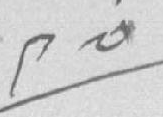༩༧
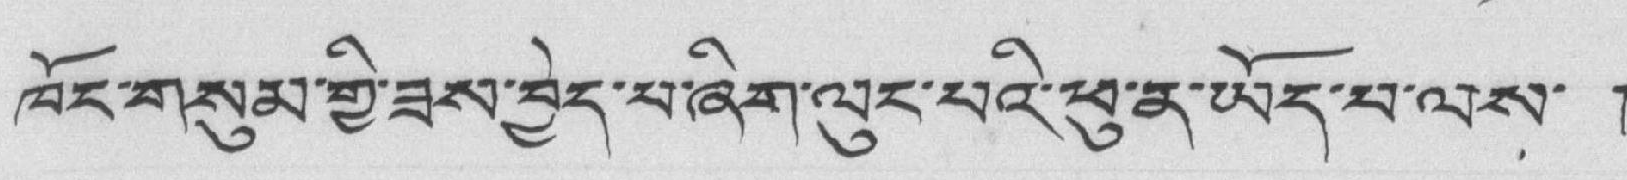ཁོང་གསུམ་གྱི་ཟས་བྱེད་པ་ཞིག་ལུང་པའི་ཕུ་ན་ཡོད་པ་ལས་ །
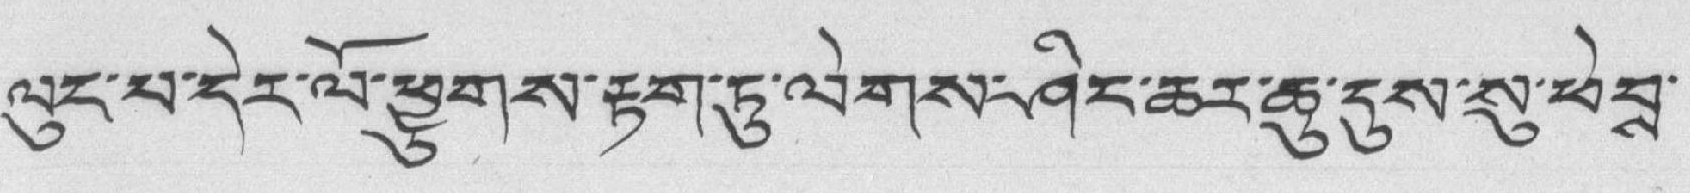ལུང་པ་དེར་ལོ་ཕྱུགས་རྟག་ཏུ་ལེགས་ཤིང་ཆར་ཆུ་དུས་སུ་ཕེབྶ་
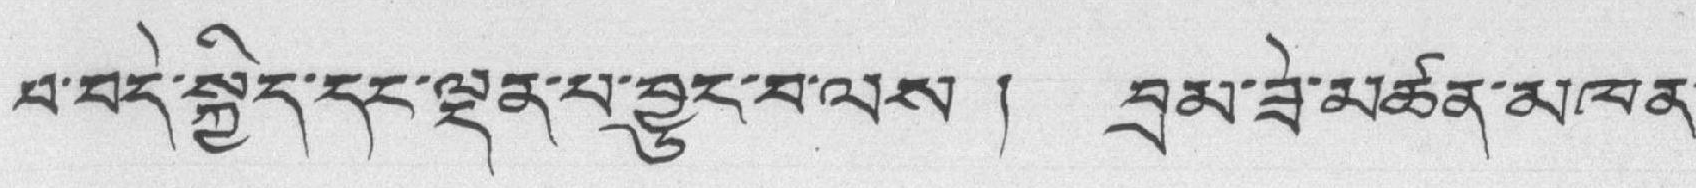པ་བདེ་སྐྱིད་དང་ལྡན་པ་བྱུང་བ་ལས ། བྲམ་ཟེ་མཚན་མཁན་
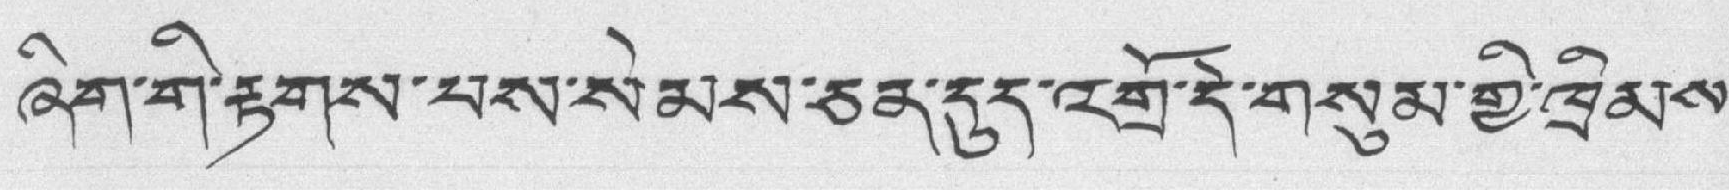ཞིག་གི་རྟགས་པས་སེམས་ཅན་དུད་འགྲོ་དེ་གསུམ་གྱི་ཁྲིམས་
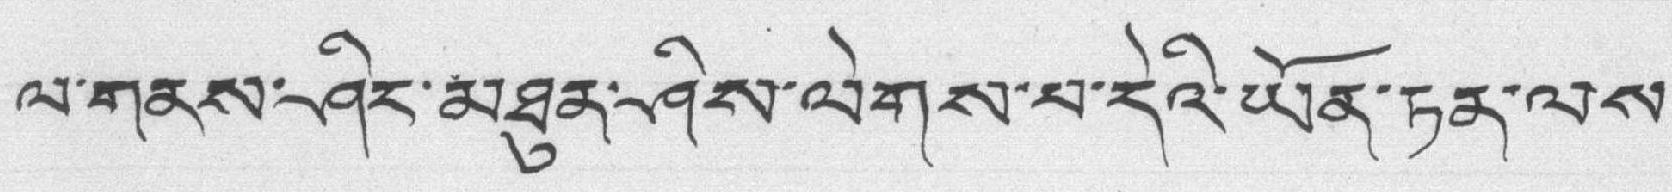ལ་གནས་ཤིང་མཐུན་ཤིས་ལེགས་པ་དེའི་ཡོན་ཏན་ལས་
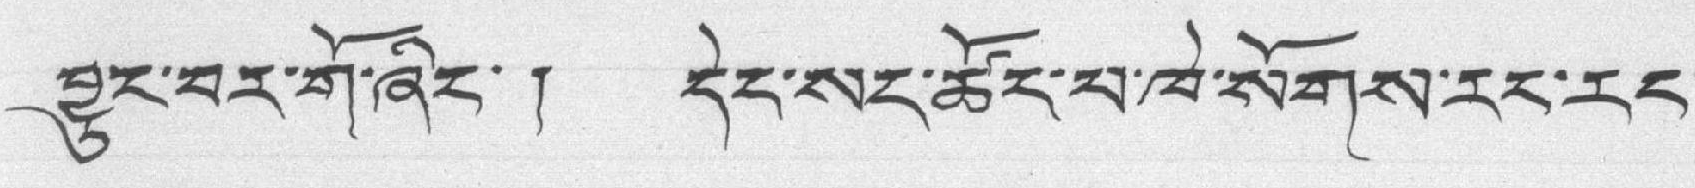བྱུང་བར་གོ་ཞིང་ ། དེང་སང་ཚོང་པ་ཁེ་སོགས་རང་རང་
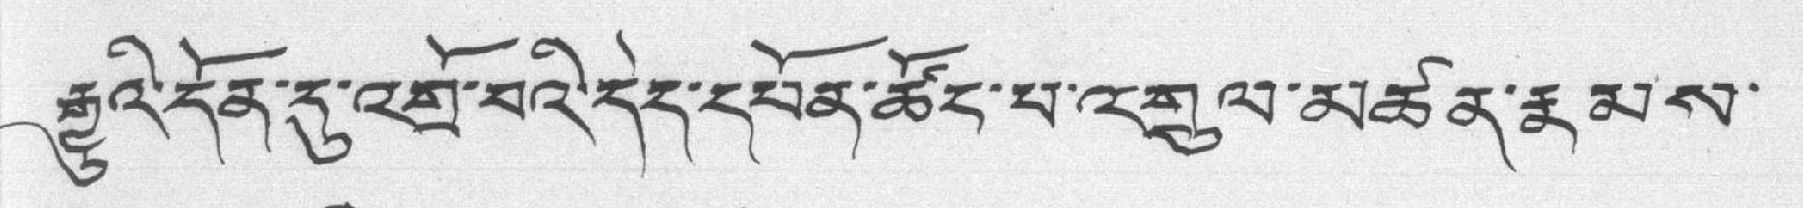རྒྱུའི་དོན་དུ་འགྲོ་བའི་དེད་དཔོན་ཚོང་པ་འགྲུལ་མཚན་རྣམས་
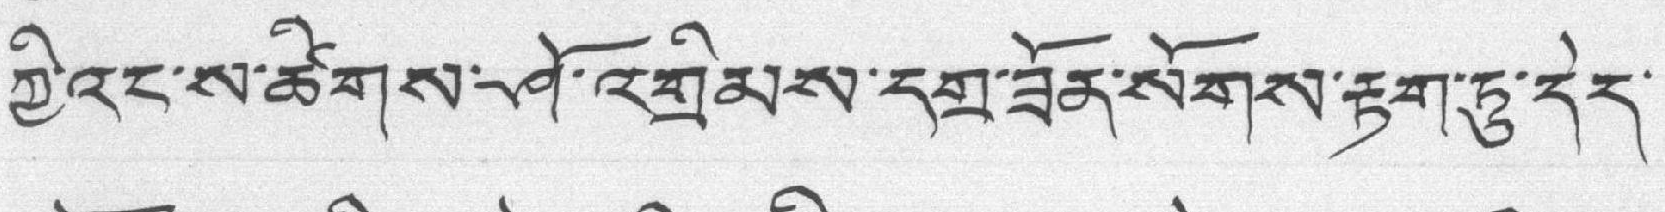ཀྱི་འང་ས་ཚིགས་ཤོ་འགྲིམས་དགྲ་ཟོན་སོགས་རྟག་ཏུ་དེད་
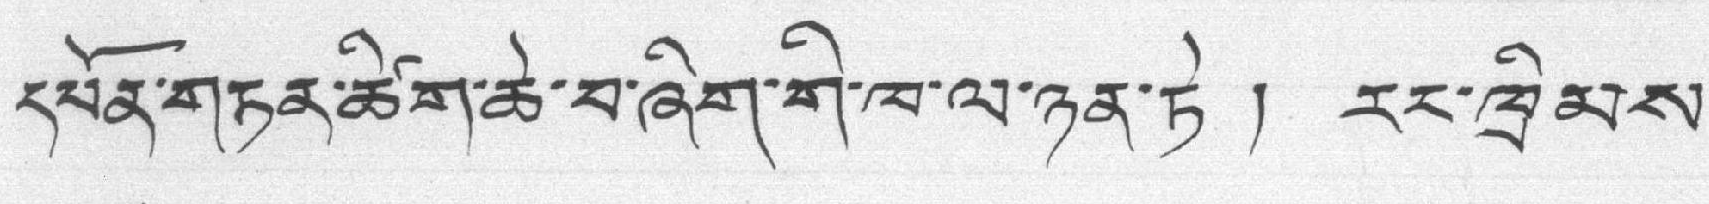དཔོན་གཏན་ཚིག་ཆེ་བ་ཞིག་གི་ཁ་ལ་ཉན་ཏེ ། རང་ཁྲིམས་
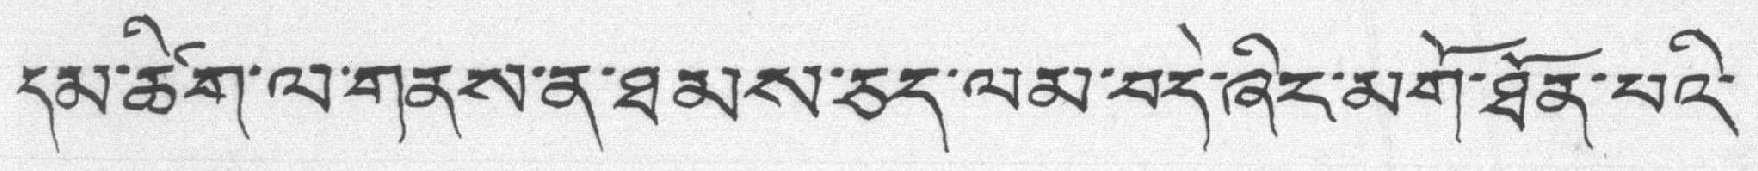དམ་ཆིག་ལ་གནས་ན་ཐམས་ཅད་ལམ་བདེ་ཞིང་མགོ་ཐོན་པའི་
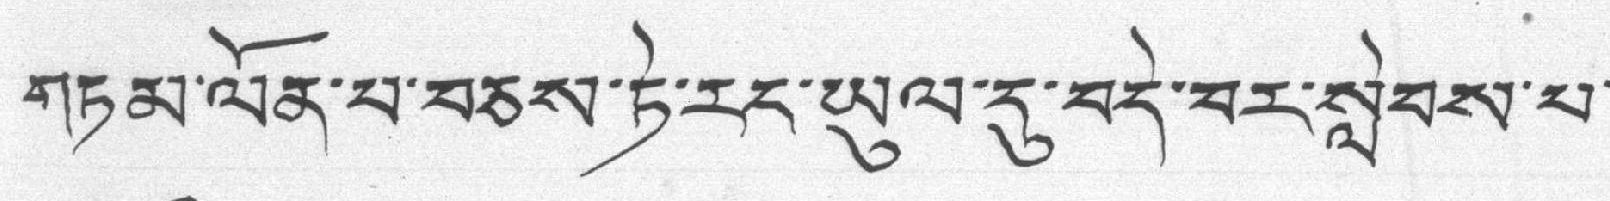གཏམ་ལོན་པ་བཅས་ཏེ་རང་ཡུལ་དུ་བདེ་བར་སླེབས་པ་
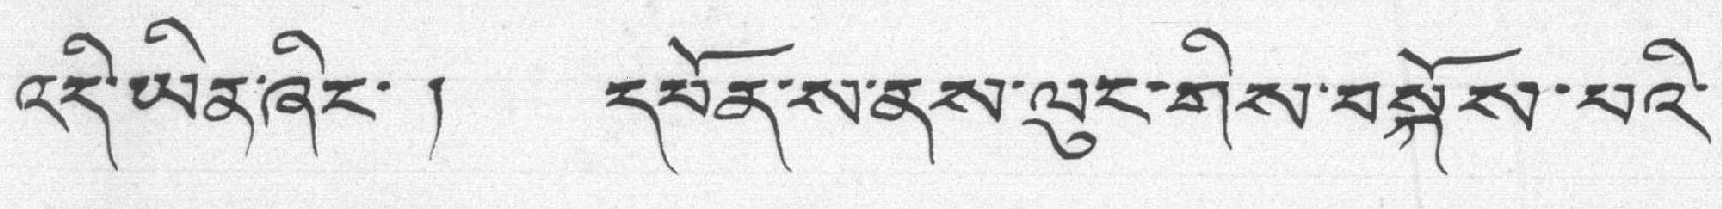འདི་ཡན་ཞིང་ ། དཔོན་ས་ནས་ལུང་གིས་བསྐོས་པའི་
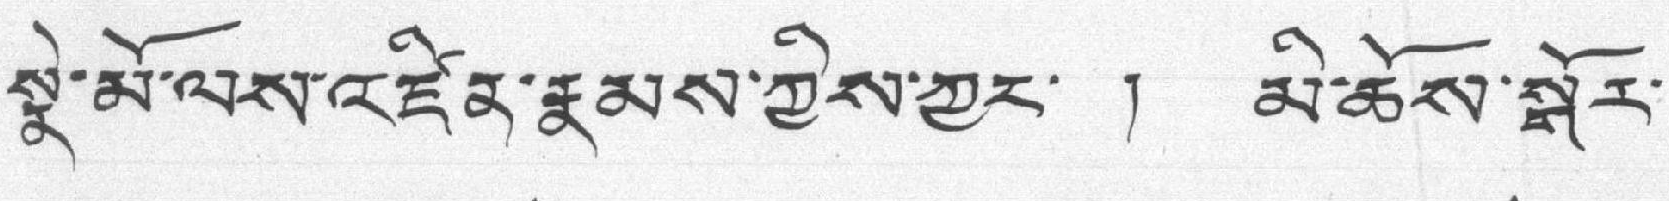སྣེ་མོ་ལས་འཛིན་རྣམས་ཀྱིས་ཀྱང་ ། མི་ཆོས་སྒོར་
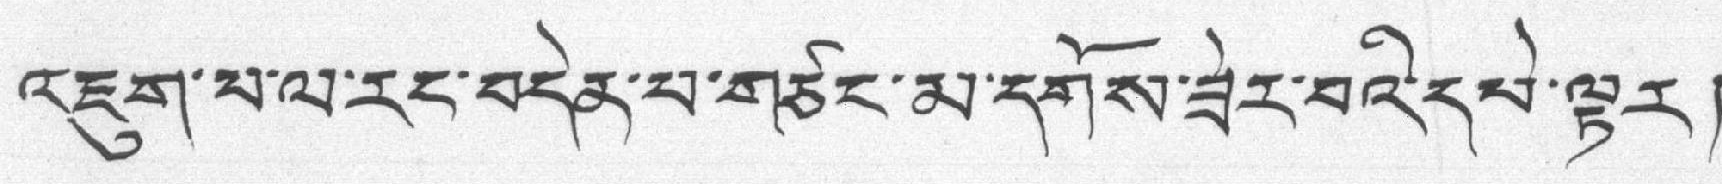འཇུག་པ་ལ་རང་བདེན་པ་གཙང་མ་དགོས་ཟེར་བའི་དཔེ་ལྟར།
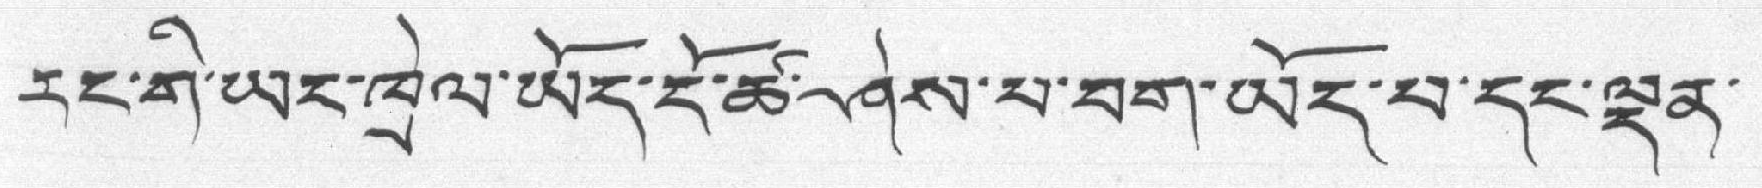རང་གི་ཡང་ཁྲེལ་ཡོད་ངོ་ཚ་ཤེས་པ་བག་ཡོད་པ་དང་ལྡན་
